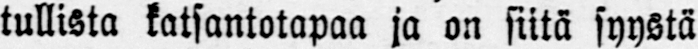tullista katsantotapaa ja on siitä syystä
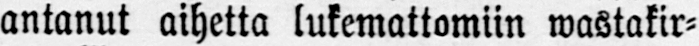antanut aihetta lukemattomiin wastakir-
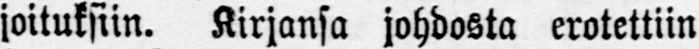joituksiin. Kirjansa johdosta erotettiin
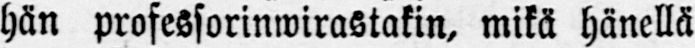hän professorinwirastakin, mikä hänellä
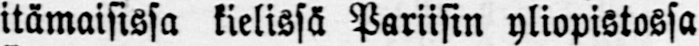itämaisissa kielissä Pariisin yliopistossa
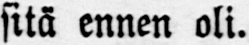sitä ennen oli.
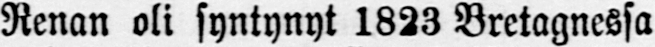Renan oli syntynyt 1823 Bretagnessa
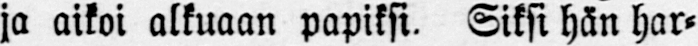ja aikoi alkuaan papiksi. Siksi hän har-
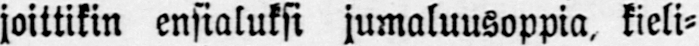joittikin ensialuksi jumaluusoppia, kieli-
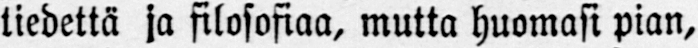tiedettä ja filosofiaa, mutta huomasi pian,
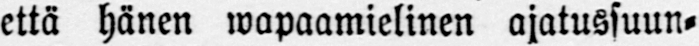että hänen wapaamielinen ajatussuun-
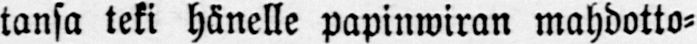tansa teki hänelle papinwiran mahdotto-
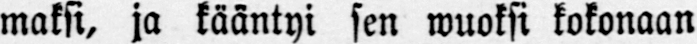maksi, ja kääntyi sen wuoksi kokonaan
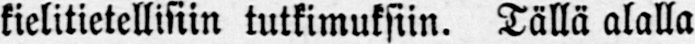kielitietellisiin tutkimuksiin. Tällä alalla
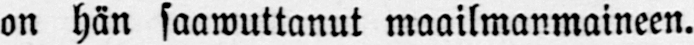on hän saawuttanut maailmanmaineen.
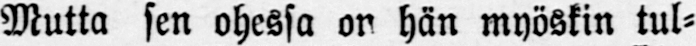Mutta sen ohessa on hän myöskin tul-
